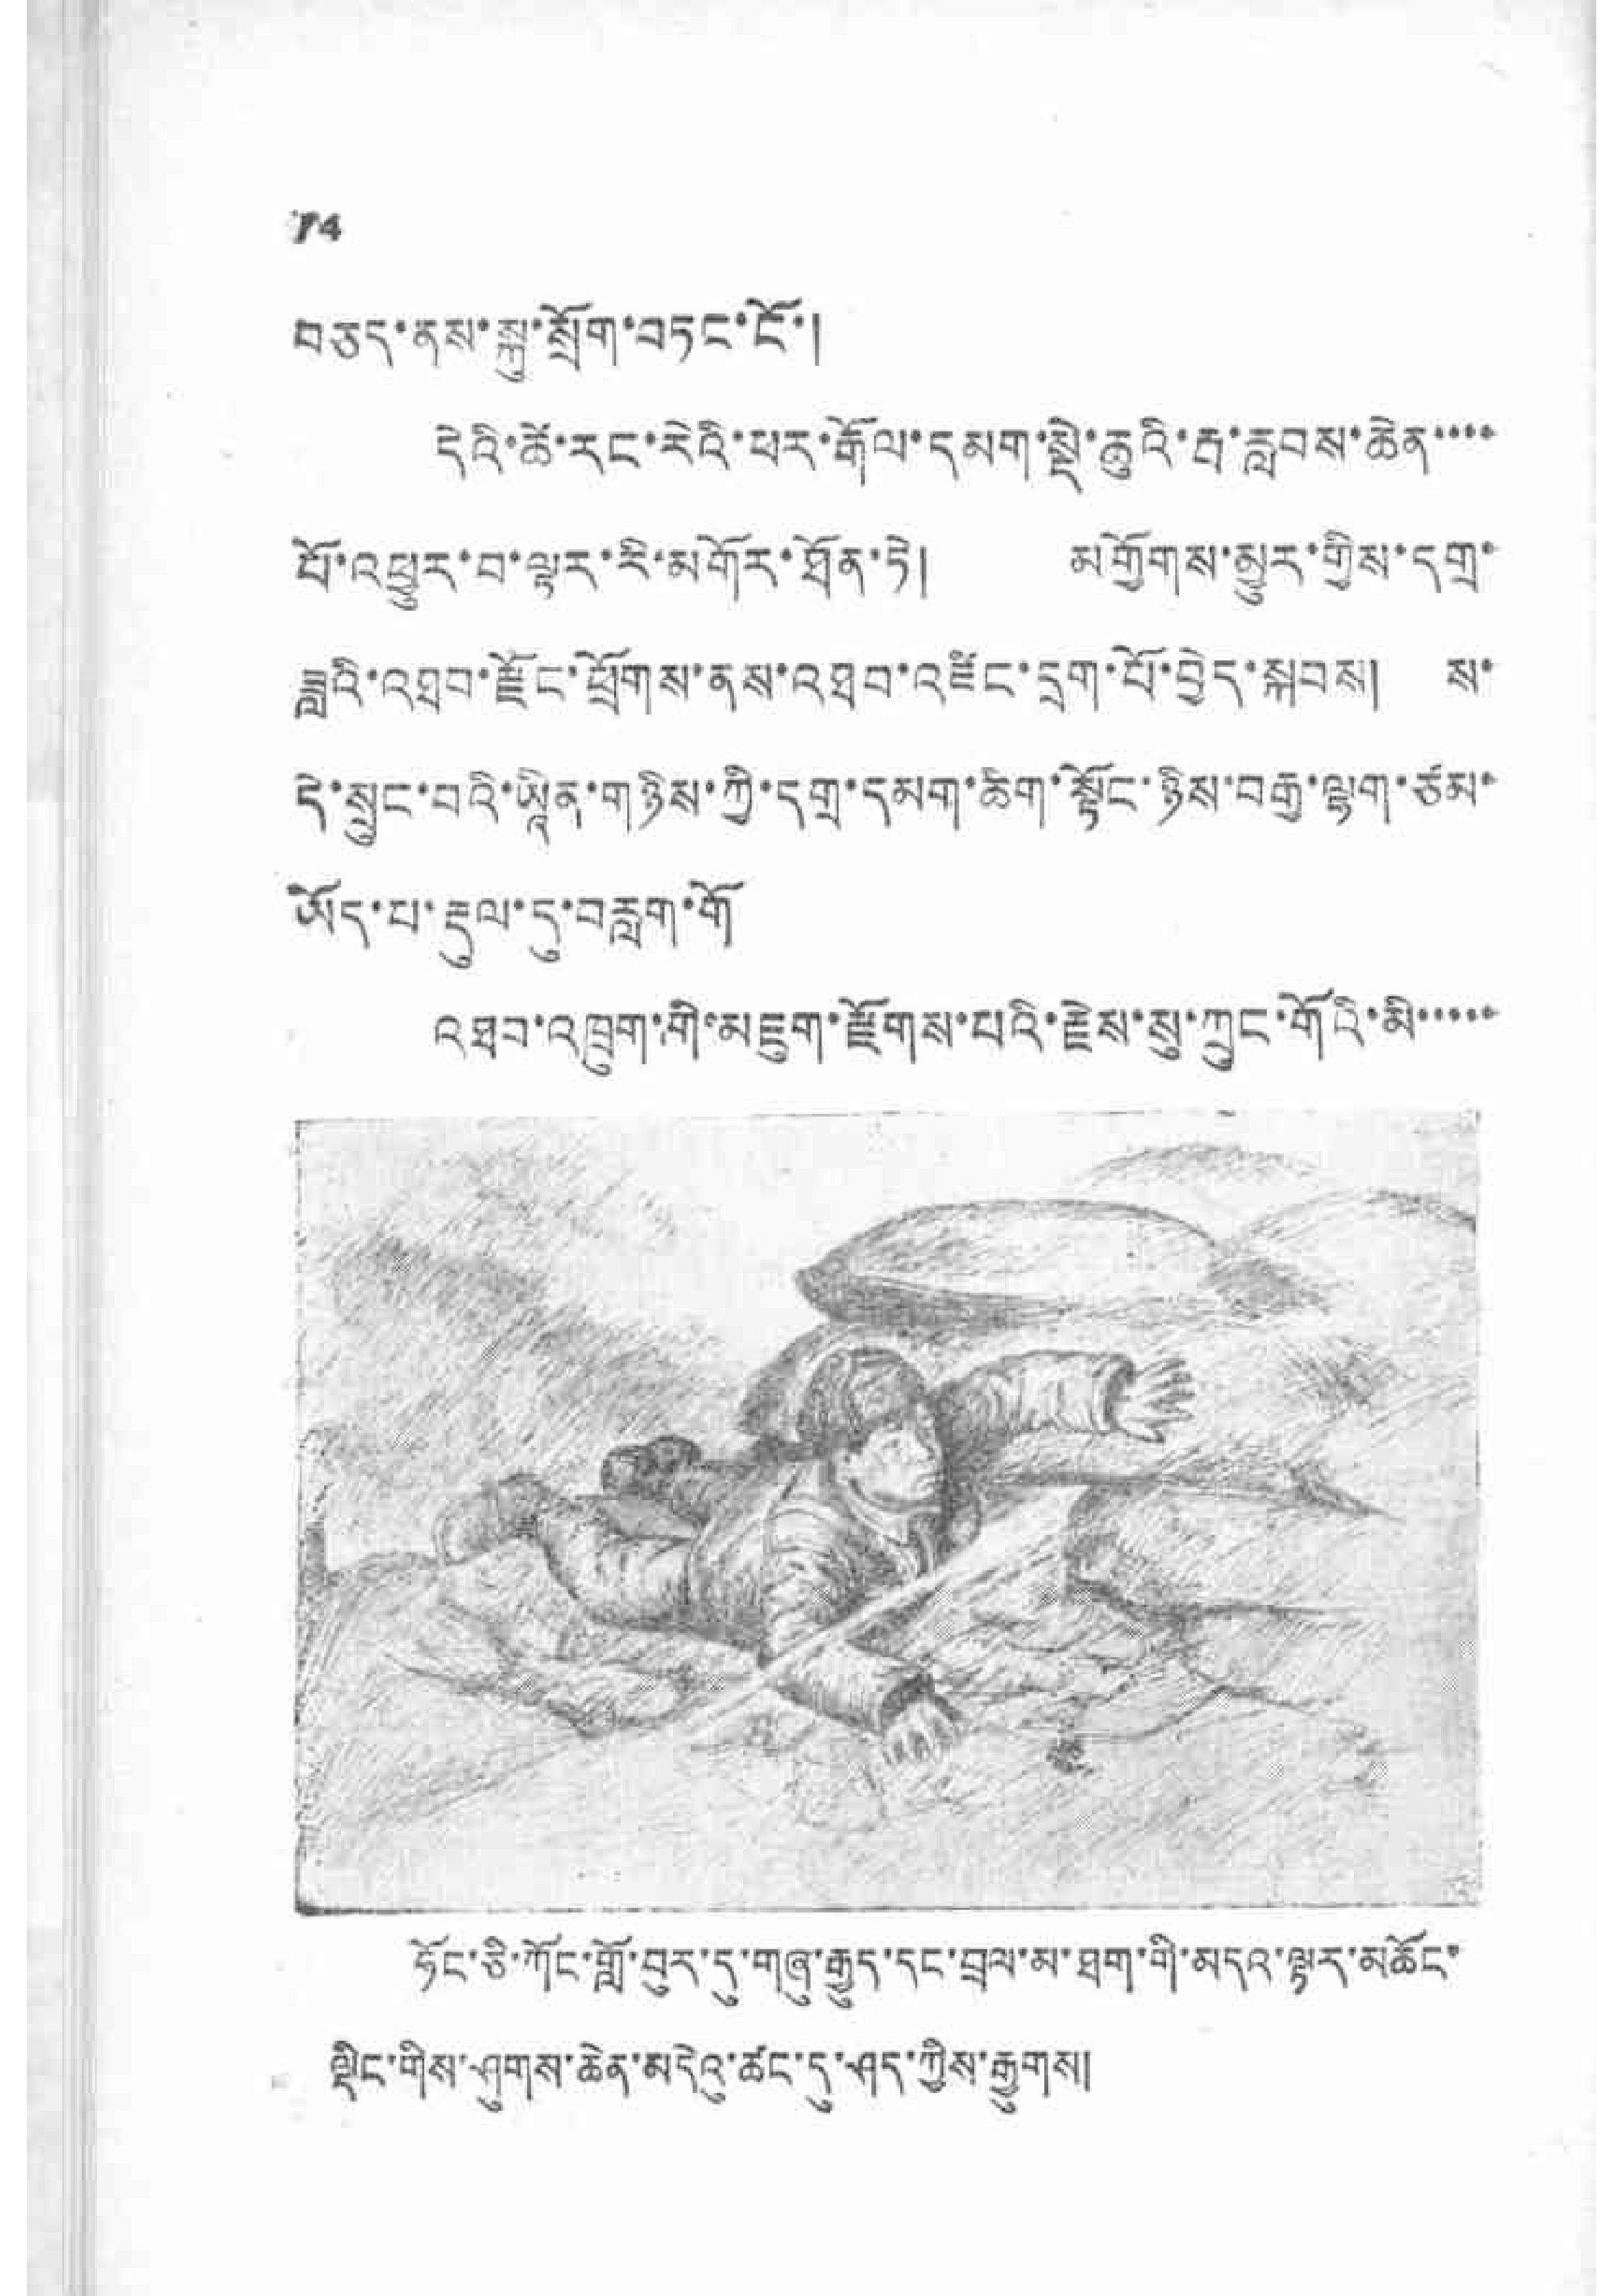14
བཅད་ནས་སྐུ་སྲོག་གཏང་ངོ་།
དེའི་ཚེ་རང་རེའི་ཕར་རྒོལ་དམག་སྡེ་ཆུའི་རྦ་རླབས་ཆེན་་་་
པོ་འཕྱུར་བ་ལྟར་རི་མགོར་ཐོན་ཏེ། མགྱོགས་མྱུར་གྱིས་དགྲ་
ཟླའི་འཐབ་རྫོང་ཕྲོགས་ནས་འཐབ་འཛིང་དྲག་པོ་བྱེད་སྐབས། ས་
དེ་སྲུང་བའི་ཡཱིན་གཉིས་ཀྱི་དགྲ་དམག་ཆིག་སྟོང་ཉིས་བརྒྱ་ལྷག་ཙམ་
ཡོད་པ་རྡུལ་དུ་བརླག་གོ
འཐབ་འཁྲུག་གི་མཇུག་རྫོགས་པའི་རྗེས་སུ་ཀྲུང་གོའི་མི་་་་་
ཧོང་ཅི་ཀོང་གློ་བུར་དུ་གཞུ་རྒྱུད་དང་བྲལ་མ་ཐག་གི་མདའ་ལྟར་མཆོང་
ལྡིང་གིས་ཤུགས་ཆེན་མདེའུ་ཚང་དུ་ཤད་ཀྱིས་རྒྱུགས།
